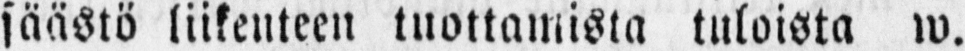säästö liikenteen tuottamista tuloista w.
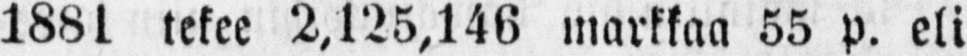188l tekee 2,125,146 markkaa 55 p. eli
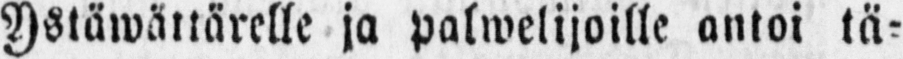Ystäwättärelle ja palwelijoille antoi tä-
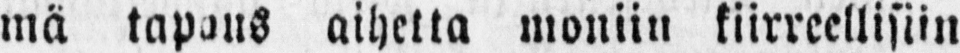mä tapaus aihetta moniin kiirreellisiin
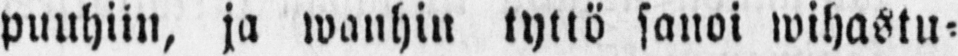puuhiin, ja wanhin tyttö sanoi wihastu-
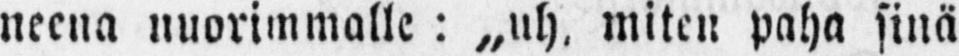neena nuorimmalle: „uh. miten paha sinä
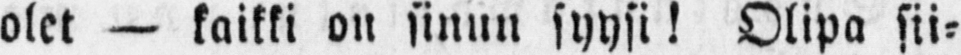olet — kaikki on sinun syysi! Olipa sii-
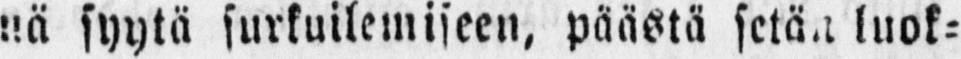nä syytä surkuilemiseen, päästä setän luok-
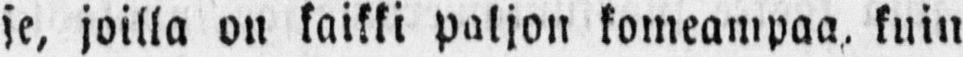se, joilla on kaikki paljon komeampaa, kuin
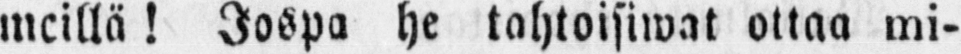meillä! Jospa he tahtoisiwat ottaa mi-
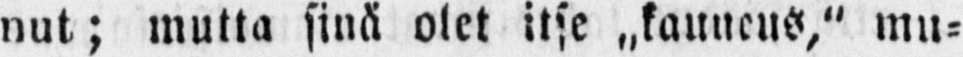nut; mutta sinä olet itse ˶kauneus," mu-
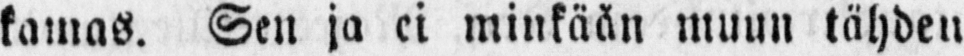kamas. Sen ja ei minkään muun tähden
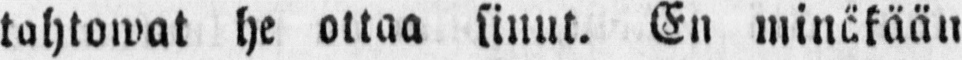tahtowat he ottaa sinut. En minäkään
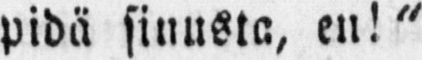pidä sinusta, en!"
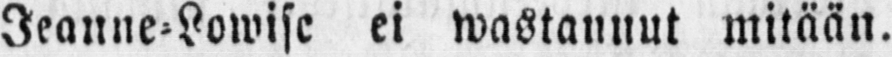Jeanne-Lowise ei wastannut mitään.
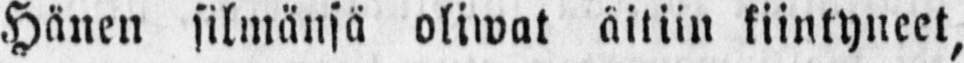Hänen silmänsä oliwat äitiin kiintyneet,
